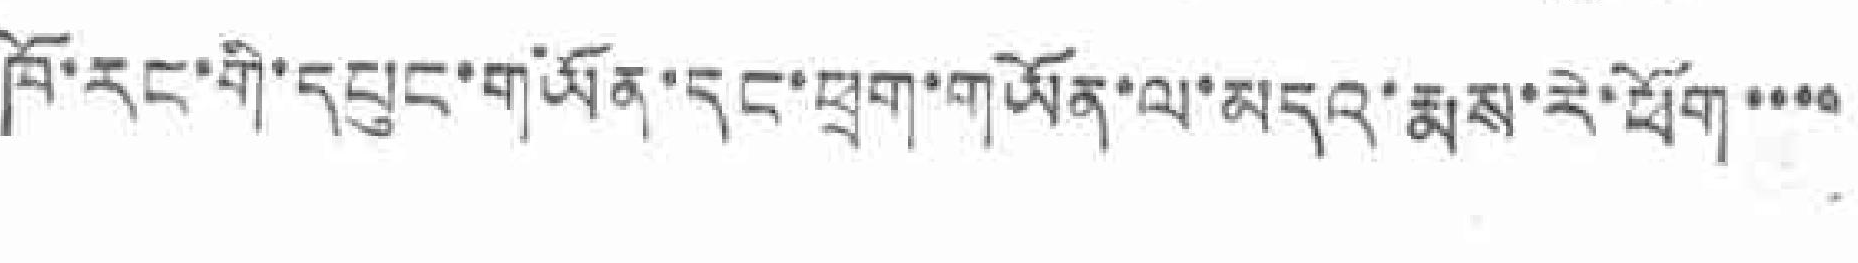ཁོ་རང་གི་དཔུང་གཡོན་དང་ཕྲག་གཡོན་ལ་མདའ་རྨས་རེ་ཕོག་་་་
